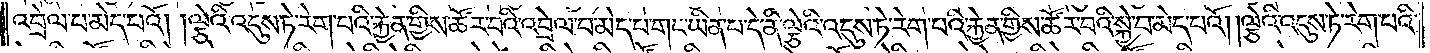འབྲེལ་པ་མེད་པའོ། །ལྕེའི་འདུས་ཏེ་རེག་པའི་རྐྱེན་གྱིས་ཚོར་བའི་འབྲེལ་བ་མེད་པ་གང་ཡིན་པ་དེ་ནི་ལྕེའི་འདུས་ཏེ་རེག་པའི་རྐྱེན་གྱིས་ཚོར་བའི་སྐྱེ་བ་མེད་པའོ། །ལྕེའི་འདུས་ཏེ་རེག་པའི་
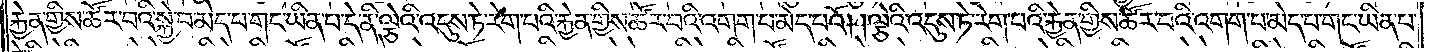རྐྱེན་གྱིས་ཚོར་བའི་སྐྱེ་བ་མེད་པ་གང་ཡིན་པ་དེ་ནི་ལྕེའི་འདུས་ཏེ་རེག་པའི་རྐྱེན་གྱིས་ཚོར་བའི་འགག་པ་མེད་པའོ། །ལྕེའི་འདུས་ཏེ་རེག་པའི་རྐྱེན་གྱིས་ཚོར་བའི་འགག་པ་མེད་པ་གང་ཡིན་པ་
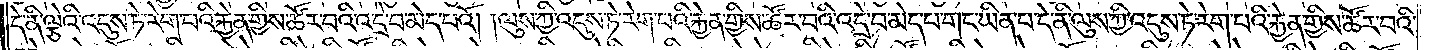དེ་ནི་ལྕེའི་འདུས་ཏེ་རེག་པའི་རྐྱེན་གྱིས་ཚོར་བའི་འདྲེ་བ་མེད་པའོ། །ལུས་ཀྱི་འདུས་ཏེ་རེག་པའི་རྐྱེན་གྱིས་ཚོར་བའི་འདྲེ་བ་མེད་པ་གང་ཡིན་པ་དེ་ནི་ལུས་ཀྱི་འདུས་ཏེ་རེག་པའི་རྐྱེན་གྱིས་ཚོར་བའི་
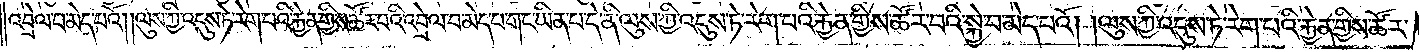འབྲེལ་བ་མེད་པའོ། །ལུས་ཀྱི་འདུས་ཏེ་རེག་པའི་རྐྱེན་གྱིས་ཚོར་བའི་འབྲེལ་བ་མེད་པ་གང་ཡིན་པ་དེ་ནི་ལུས་ཀྱི་འདུས་ཏེ་རེག་པའི་རྐྱེན་གྱིས་ཚོར་བའི་སྐྱེ་བ་མེད་པའོ། །ལུས་ཀྱི་འདུས་ཏེ་རེག་པའི་རྐྱེན་གྱིས་ཚོར་
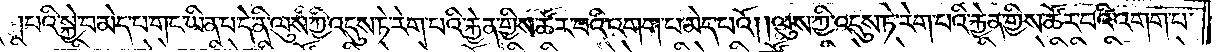བའི་སྐྱེ་བ་མེད་པ་གང་ཡིན་པ་དེ་ནི་ལུས་ཀྱི་འདུས་ཏེ་རེག་པའི་རྐྱེན་གྱིས་ཚོར་བའི་འགག་པ་མེད་པའོ། །ལུས་ཀྱི་འདུས་ཏེ་རེག་པའི་རྐྱེན་གྱིས་ཚོར་བའི་འགག་པ་
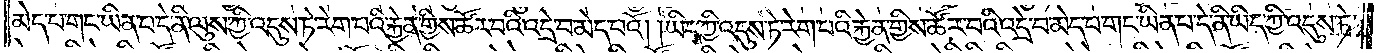མེད་པ་གང་ཡིན་པ་དེ་ནི་ལུས་ཀྱི་འདུས་ཏེ་རེག་པའི་རྐྱེན་གྱིས་ཚོར་བའི་འདྲེ་བ་མེད་པའོ། །ཡིད་ཀྱི་འདུས་ཏེ་རེག་པའི་རྐྱེན་གྱིས་ཚོར་བའི་འདྲེ་བ་མེད་པ་གང་ཡིན་པ་དེ་ནི་ཡིད་ཀྱི་འདུས་ཏེ་
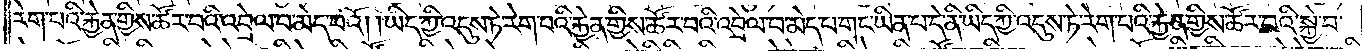རེག་པའི་རྐྱེན་གྱིས་ཚོར་བའི་འབྲེལ་བ་མེད་པའོ། །ཡིད་ཀྱི་འདུས་ཏེ་རེག་པའི་རྐྱེན་གྱིས་ཚོར་བའི་འབྲེལ་བ་མེད་པ་གང་ཡིན་པ་དེ་ནི་ཡིད་ཀྱི་འདུས་ཏེ་རེག་པའི་རྐྱེན་གྱིས་ཚོར་བའི་སྐྱེ་བ་
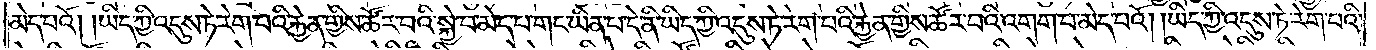མེད་པའོ། །ཡིད་ཀྱི་འདུས་ཏེ་རེག་པའི་རྐྱེན་གྱིས་ཚོར་བའི་སྐྱེ་བ་མེད་པ་གང་ཡིན་པ་དེ་ནི་ཡིད་ཀྱི་འདུས་ཏེ་རེག་པའི་རྐྱེན་གྱིས་ཚོར་བའི་འགག་པ་མེད་པའོ། །ཡིད་ཀྱི་འདུས་ཏེ་རེག་པའི་
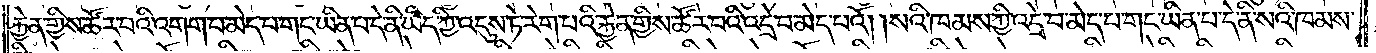རྐྱེན་གྱིས་ཚོར་བའི་འགག་པ་མེད་པ་གང་ཡིན་པ་དེ་ནི་ཡིད་ཀྱི་འདུས་ཏེ་རེག་པའི་རྐྱེན་གྱིས་ཚོར་བའི་འདྲེ་བ་མེད་པའོ། །སའི་ཁམས་ཀྱི་འདྲེ་བ་མེད་པ་གང་ཡིན་པ་དེ་ནི་སའི་ཁམས་
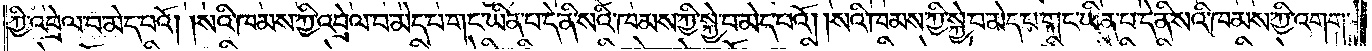ཀྱི་འབྲེལ་བ་མེད་པའོ། །སའི་ཁམས་ཀྱི་འབྲེལ་བ་མེད་པ་གང་ཡིན་པ་དེ་ནི་སའི་ཁམས་ཀྱི་སྐྱེ་བ་མེད་པའོ། །སའི་ཁམས་ཀྱི་སྐྱེ་བ་མེད་པ་གང་ཡིན་པ་དེ་ནི་སའི་ཁམས་ཀྱི་འགག་
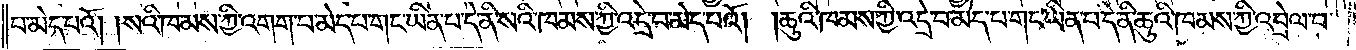པ་མེད་པའོ། །སའི་ཁམས་ཀྱི་འགག་པ་མེད་པ་གང་ཡིན་པ་དེ་ནི་སའི་ཁམས་ཀྱི་འདྲེ་བ་མེད་པའོ། །ཆུའི་ཁམས་ཀྱི་འདྲེ་བ་མེད་པ་གང་ཡིན་པ་དེ་ནི་ཆུའི་ཁམས་ཀྱི་འབྲེལ་བ་
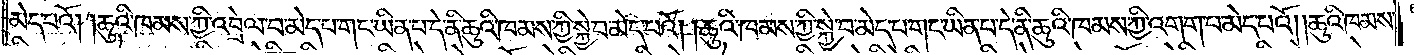མེད་པའོ། །ཆུའི་ཁམས་ཀྱི་འབྲེལ་བ་མེད་པ་གང་ཡིན་པ་དེ་ནི་ཆུའི་ཁམས་ཀྱི་སྐྱེ་བ་མེད་པའོ། །ཆུའི་ཁམས་ཀྱི་སྐྱེ་བ་མེད་པ་གང་ཡིན་པ་དེ་ནི་ཆུའི་ཁམས་ཀྱི་འགག་པ་མེད་པའོ། །ཆུའི་ཁམས་
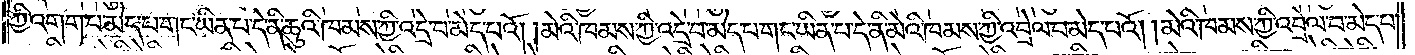ཀྱི་འགག་པ་མེད་པ་གང་ཡིན་པ་དེ་ནི་ཆུའི་ཁམས་ཀྱི་འདྲེ་བ་མེད་པའོ། །མེའི་ཁམས་ཀྱི་འདྲེ་བ་མེད་པ་གང་ཡིན་པ་དེ་ནི་མེའི་ཁམས་ཀྱི་འབྲེལ་བ་མེད་པའོ། །མེའི་ཁམས་ཀྱི་འབྲེལ་བ་མེད་པ་
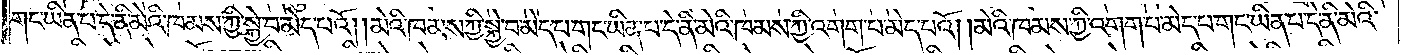གང་ཡིན་པ་དེ་ནི་མེའི་ཁམས་ཀྱི་སྐྱེ་བ་མེད་པའོ། །མེའི་ཁམས་ཀྱི་སྐྱེ་བ་མེད་པ་གང་ཡིན་པ་དེ་ནི་མེའི་ཁམས་ཀྱི་འགག་པ་མེད་པའོ། །མེའི་ཁམས་ཀྱི་འགག་པ་མེད་པ་གང་ཡིན་པ་དེ་ནི་མེའི་
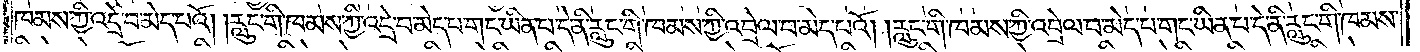ཁམས་ཀྱི་འདྲེ་བ་མེད་པའོ། །རླུང་གི་ཁམས་ཀྱི་འདྲེ་བ་མེད་པ་གང་ཡིན་པ་དེ་ནི་རླུང་གི་ཁམས་ཀྱི་འབྲེལ་བ་མེད་པའོ། །རླུང་གི་ཁམས་ཀྱི་འབྲེལ་བ་མེད་པ་གང་ཡིན་པ་དེ་ནི་རླུང་གི་ཁམས་
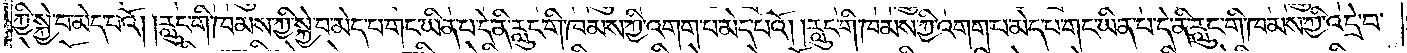ཀྱི་སྐྱེ་བ་མེད་པའོ། །རླུང་གི་ཁམས་ཀྱི་སྐྱེ་བ་མེད་པ་གང་ཡིན་པ་དེ་ནི་རླུང་གི་ཁམས་ཀྱི་འགག་པ་མེད་པའོ། །རླུང་གི་ཁམས་ཀྱི་འགག་པ་མེད་པ་གང་ཡིན་པ་དེ་ནི་རླུང་གི་ཁམས་ཀྱི་འདྲེ་བ་
